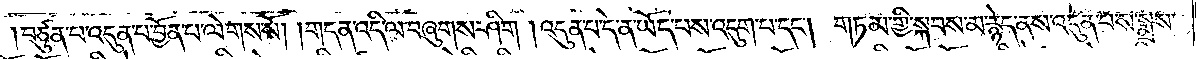བཙུན་པ་འདུན་པ་བྱོན་པ་ལེགས་སོ། །གདན་འདི་ལ་བཞུགས་ཤིག །འདུན་པ་དེ་ན་ཡོད་པས་འདུག་པ་དང༌། གཏམ་གྱི་སྐབས་མ་རྙེད་ནས་འདུན་པས་སྨྲས་
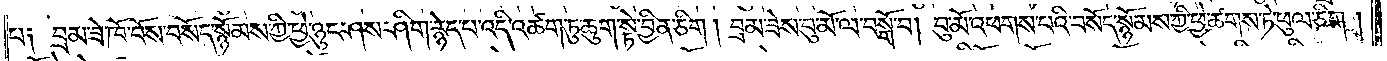པ༑ བྲམ་ཟེ་ཁོ་བོས་བསོད་སྙོམས་ཀྱི་ཕྱེ་ཉུང་ཤས་ཤིག་རྙེད་པ་འདི་འཚག་ཏུ་ཆུག་སྟེ་བྱིན་ཅིག །བྲམ་ཟེས་བུ་མོ་ལ་བསྒོ་བ། བུ་མོ་འཕགས་པའི་བསོད་སྙོམས་ཀྱི་ཕྱེ་ཚགས་ཏེ་ཕུལ་ཅིག །
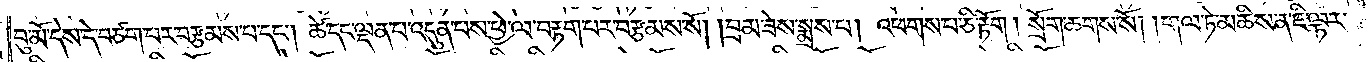བུ་མོ་དེས་དེ་བཙག་པར་བརྩམས་པ་དང༌། ཚེ་དང་ལྡན་པ་འདུན་པས་ཕྱེ་ལ་བརྟག་པར་བརྩམས་སོ། །བྲམ་ཟེས་སྨྲས་པ། འཕགས་པ་ཅི་རྟོག། སྲོག་ཆགས་སོ། །གལ་ཏེ་མཆིས་ན་ཇི་ལྟར་
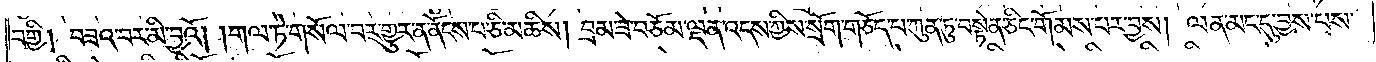བགྱི། བཟའ་བར་མི་བྱའོ། །གལ་ཏེ་གསོལ་བར་གྱུར་ན་ནོངས་པ་ཅི་མཆིས། བྲམ་ཟེ་བཅོམ་ལྡན་འདས་ཀྱིས་སྲོག་གཅོད་པ་ཀུན་ཏུ་བསྟེན་ཅིང་གོམས་པར་བྱས། ལན་མང་དུ་བྱས་པས་
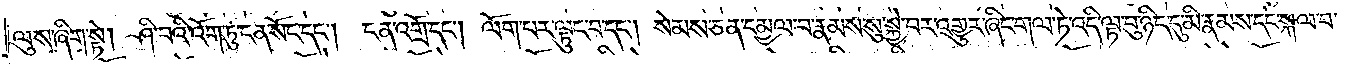ལུས་ཞིག་སྟེ། ཤི་བའི་འོག་ཏུ་ངན་སོང་དང༌། ངན་འགྲོ་དང༌། ལོག་པར་ལྟུང་བ་དང༌། སེམས་ཅན་དམྱལ་བ་རྣམས་སུ་སྐྱེ་བར་འགྱུར་ཞིང་གལ་ཏེ་འདི་ལྟ་བུ་ཉིད་དུ་མི་རྣམས་དང་སྐལ་བ་
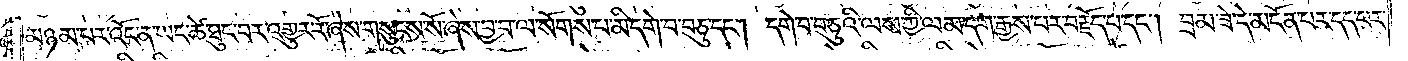མཉམ་པར་འོང་ན་ཡང་ཚེ་ཐུང་བར་འགྱུར་རོ་ཞེས་གསུངས་སོ་ཞེས་བྱ་བ་ལ་སོགས་པ་མི་དགེ་བ་བཅུ་དང༌། དགེ་བ་བཅུའི་ལས་ཀྱི་ལམ་དག་རྒྱས་པར་བརྗོད་པ་དང༌། བྲམ་ཟེ་དེ་མངོན་པར་དད་པར་
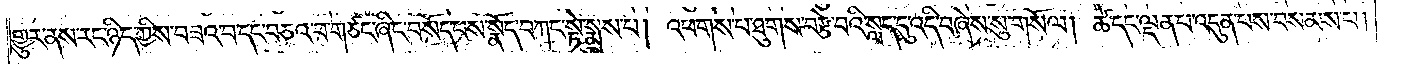གྱུར་ནས་རང་ཉིད་ཀྱིས་བཟའ་བ་དང་བཅའ་བ་གཙང་ཞིང་བསོད་པས་སྣོད་བཀང་སྟེ་སྨྲས་པ། འཕགས་པ་ཐུགས་བརྩེ་བའི་སླད་དུ་འདི་བཞེས་སུ་གསོལ། ཚེ་དང་ལྡན་པ་འདུན་པས་བསམས་པ།
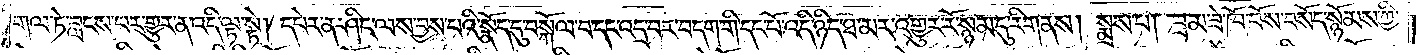གལ་ཏེ་བླངས་པར་གྱུར་ན་འདི་ལྟ་སྟེ། དཔེར་ན་ཤིང་ལས་བྱས་པའི་སྣོད་དུ་བསྐོལ་བ་དང་འདྲ་བར་བདག་གི་དང་པོ་འདི་ཉིད་ཐ་མར་འགྱུར་རོ་སྙམ་དུ་རིག་ནས། སྨྲས་པ། བྲམ་ཟེ་ཁོ་བོས་བསོད་སྙོམས་ཀྱི་
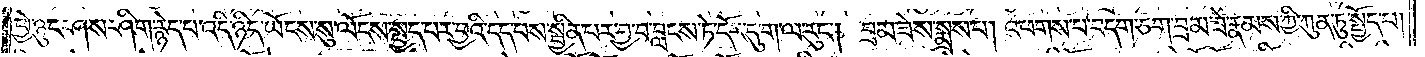ཕྱེ་ཉུང་ཤས་ཤིག་རྙེད་པ་འདི་ཉིད་ཡོངས་སུ་ལོངས་སྤྱད་པར་བྱའི་དད་པས་སྦྱིན་པར་བྱ་བ་བླངས་ཏེ་དོར་དུ་ག་ལ་རུང༌། བྲམ་ཟེས་སྨྲས་པ། འཕགས་པ་བདག་ཅག་བྲམ་ཟེ་རྣམས་ཀྱི་ཀུན་ཏུ་སྤྱོད་པ།
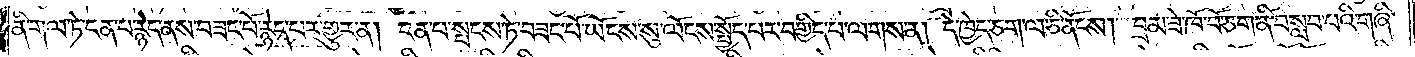ནི་གལ་ཏེ་ངན་པ་རྙེད་ནས་བཟང་པོ་རྙེད་པར་གྱུར་ན། ངན་པ་སྤངས་ཏེ་བཟང་པོ་ཡོངས་སུ་ལོངས་སྤྱོད་པར་བགྱིད་པ་ལགས་ན། དེ་ཁྱེད་ཅག་ལ་ཅི་ནོངས། བྲམ་ཟེ་ཁོ་བོ་ཅག་ནི་བསླབ་པའི་གཞི་
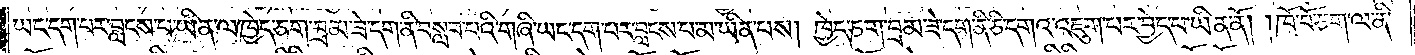ཡང་དག་པར་བླངས་པ་ཡིན་ལ་ཁྱེད་ཅག་བྲམ་ཟེ་དག་ནི་བསླབ་པའི་གཞི་ཡང་དག་པར་བླངས་པ་མ་ཡིན་པས། ཁྱེད་ཅག་བྲམ་ཟེ་དག་ནི་ཅི་དགའ་འཇུག་པར་བྱེད་པ་ཡིན་ནོ། །ཁོ་བོ་ཅག་ལ་ནི་
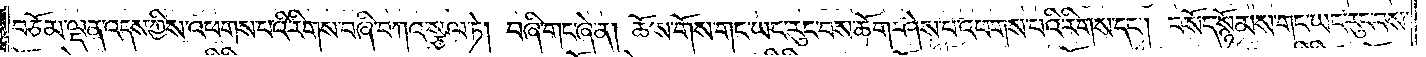བཅོམ་ལྡན་འདས་ཀྱིས་འཕགས་པའི་རིགས་བཞི་བཀའ་སྩལ་ཏེ། བཞི་གང་ཞེ་ན། ཆོས་གོས་གང་ཡང་རུང་བས་ཆོག་ཤེས་པ་འཕགས་པའི་རིགས་དང༌། བསོད་སྙོམས་གང་ཡང་རུང་བས་
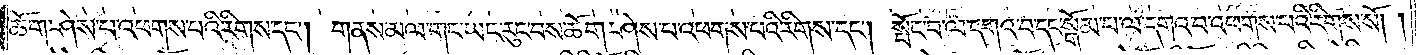ཆོག་ཤེས་པ་འཕགས་པའི་རིགས་དང༌། གནས་མལ་གང་ཡང་རུང་བས་ཆོག་ཤེས་པ་འཕགས་པའི་རིགས་དང༌། སྤོང་བ་ལ་དགའ་བ་དང་སྒོམ་པ་ལ་དགའ་བ་འཕགས་པའི་རིགས་སོ། །
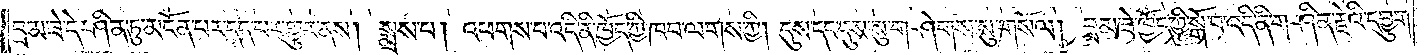བྲམ་ཟེ་དེ་ཤིན་ཏུ་མངོན་པར་དད་པར་གྱུར་ནས། སྨྲས་པ། འཕགས་པ་འདི་ནི་ཁྱོད་ཀྱི་ཁབ་ལགས་ཀྱི། དུས་དང་དུས་སུ་གཤེགས་སུ་གསོལ། བྲམ་ཟེ་ཁྱོད་ཀྱི་སྒོ་བ་འདི་ནི་གཤིན་རྗེའི་དབྱུག་
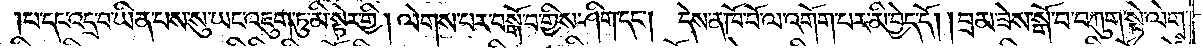པ་དང་འདྲ་བ་ཡིན་པས་སུ་ཡང་འཇུག་ཏུ་མི་སྟེར་གྱི། ལེགས་པར་བསྒོ་བ་གྱིས་ཤིག་དང༌། དེས་ན་ཁོ་བོ་ལ་འགོག་པར་མི་བྱེད་དོ། །བྲམ་ཟེས་སྒོ་བ་བཀུག་སྟེ་ལེགས་
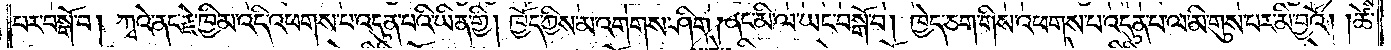པར་བསྒོ་བ། ཀྭའེ་ནང་རྗེ་ཁྱིམ་འདི་འཕགས་པ་འདུན་པའི་ཡིན་གྱི། ཁྱོད་ཀྱིས་མ་འགགས་ཤིག །ནང་མི་ལ་ཡང་བསྒོ་བ། ཁྱེད་ཅག་གིས་འཕགས་པ་འདུན་པ་ལ་མི་གུས་པར་མི་བྱའོ། །ཚེ་
